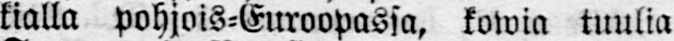kialla pohjois-Euroopassa, kowia tuulia
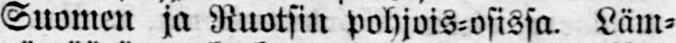Suomen ja Ruotsin pohjois-osissa. Läm-
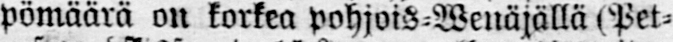pömäärä on korkea pohjois-Wenäjällä (Pet-
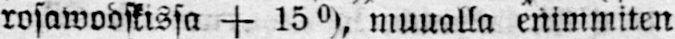rosawodskissa + 15 0), muualla enimmiten
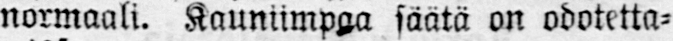normaali. Kauniimpaa säätä on odotetta-
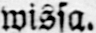wissa.
